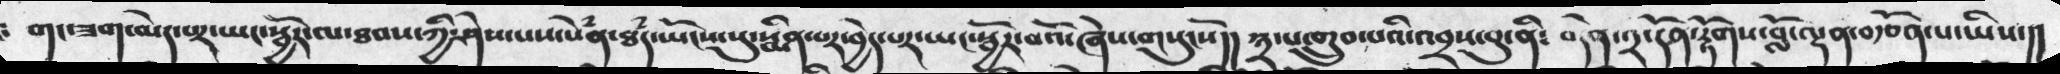གང་ཟག་མེད་པར་ཡང་སྦྱོར་ལ་ཐབས་ཀྱི་ཤེས་པས་སེཾན་ཐཾད་ཡོངས་སུ་སྨིན་པར་བྱེད་པར་ཡང་སྦྱོར་བའོ་ཞེས་གསུངསོ།།  ༣་པ་གྲུབ་པའི་འབྲས་བུ་ནི༴  བདེན་༢་དོན་རྟོགས་བློ་ལྡན་བརྩོན་པ་ཡིས་།།
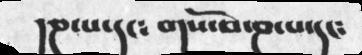།ཎ་པ་དང༴   གས་བོ་ཎ་པ་དང༴
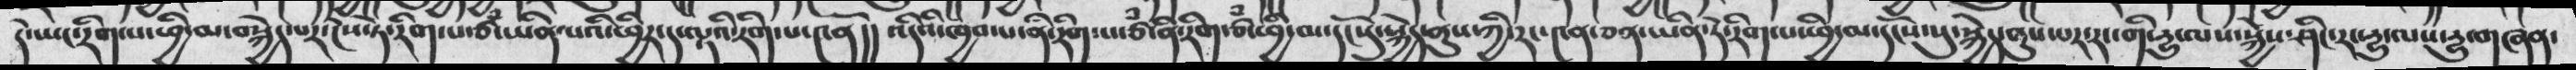དེ་ཡང་རིག་པ་ཕྱི་མ་བསྐྱེད་པར་ངེས་ཏེ་རིག་པ་ཙཾ་ཡིན་པའི་ཕྱིར་ད་ལྟའི་རིག་པ་༤ནོ།།  འདིའི་ཁྱབ་པ་ནི་རིག་པ་ཙཾ་ནི་རིག་ཙཾ་ཕྱི་མ་དངསོུ་སྐྱེད་ནུས་ཀྱི་རང་༤ན་ཅན་ཡིན་ཏེ་རིག་པ་ཕྱི་མ་དངསོ་སུ་སྐྱེད་ནུས་པར་རང་གི་དྱུ་ལས་སྐྱེས་ཤིང་རང་དྱུ་ལས་དྱུ་གཞན་
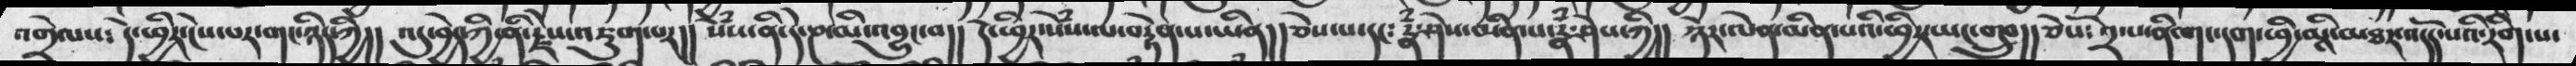འགྲེལས༴  དེ་ཕྱིར་ངེས་པར་གང་ཉིད་ཀྱི།།  འདུ་བྱེད་ཀྱི་ནི་རྗེས་འཇུག་པར།།  སེཾས་ནི་དེ་ཎ་མི་འབྱུང་བ།།  དེ་ཕྱིར་སེཾས་ལ་བརྟེན་པ་ཡིན།།  ཅེས་པ་དང༴  རྣཾ་ཤེས་མིན་པ་རྣཾ་ཤེས་ཀྱི།།  ཉེར་ལེན་མིན་པའི་ཕྱིར་ཡང་བཎྲུ།།  ཅེསོ༴  ༢་པ་ནི་གང་དག་ཕྱི་མྰི་མཐར་འདོད་པའི་རིག་པ་
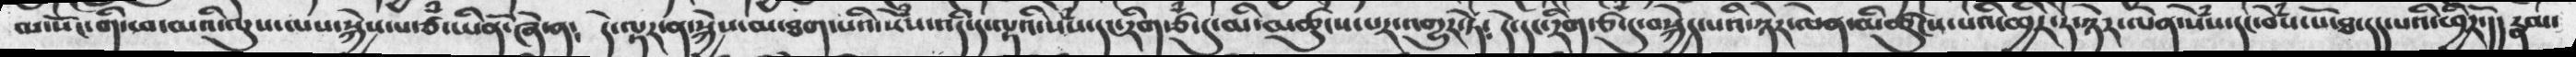མ་སོང་གི་ཕ་མའི་ལུས་ལས་སྐྱེས་པ་ཙཾ་ཡིནོ་ཞེ་ན༴    དེ་ལྟར་ན་སྐྱེས་མ་ཐག་པའི་སེཾས་འདི་ད་ལྟའི་སེཾས་དང་རིག་ཙཾ་དུ་མི་མཚུངས་པར་འགྱུར་ཏེ༴   དེ་དང་རིག་ཙཾ་དུ་བསྐྱེད་པའི་ཉེར་ལེན་མིཚུངས་པའི་ཕྱིར་ཏེ་ཉེར་ལེན་སེཾས་དང་བེཾས་པོ་ཐ་དད་པའི་ཕྱིརོ་།། རྣམ་
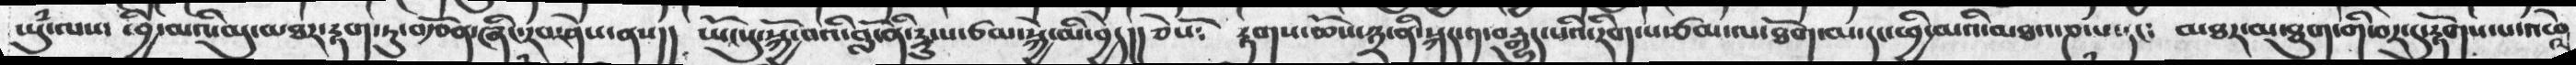ཡུཾ་ལས་  ཕྱི་མའི་མུ་མཐར་རྟག་ཏུ་བརྩོན་ཞིང་རབ་ཤེས་ནས།།  ཡོངསུ་སྐྱོ་བའི་བློ་ནི་རྡུ་པ་ཙམ་སྐྱེ་མི་བྱེད།།  ཅེསོ༴  རྟགས་ཆོས་༣་ནི་སྐད་༡་བརྒྱུད་པའི་རིག་པ་ཙམ་ལ་ཐོག་མ་དང་ཕྱི་མའི་མཐའ་ཎ་པ་དང༴  མཐར་མ་ཐུག་གི་བར་རྟོགས་པ་འཕེལ
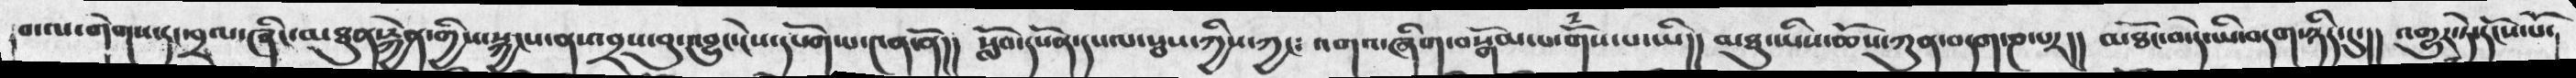བ་ལ་གེགས་དང་བྲལ་ཞིང་མཐུན་རྐྱེན་གྱིས་སྐྱངས་ན་འབྲས་བུ་འབྱུང་ངེས་དཔོག་པ་༤ན་ནོ།།    སློབ་དཔོན་དཔལ་སྦས་ཀྱིས་ཀྱང༴   འགའ་ཞིག་བསྒོམ་པ་གོས་པ་ཡི།།   མཐུ་ཡིས་ཆོས་ཀུན་བདག་ཎ་པར།།  མཐོང་བ་དེ་ཡི་བདག་ཉིད་དུ་།།  འགྱུར་ཏེ་དངོས་པོ་
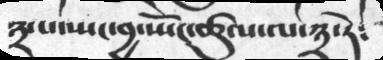༣་པ་སྤང་བྱ་སྤོང་ཚུལ་ལ་༣་ཏེ༴
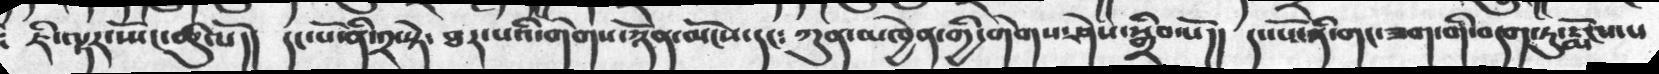ཇི་ལྟར་སྤོང་ཚུལོ།།    དང་པོ་ནི་༢་སྟེ་  ཐར་པའི་གེགས་ཉོན་མོངས་དང་ཀུན་མཁྱེན་གྱི་གེགས་ཤེས་སྒྲིབ་སོ།།   དང་པོ་ནི་གང་ཟག་གི་བདག་ཏུ་རྨོངས་པ
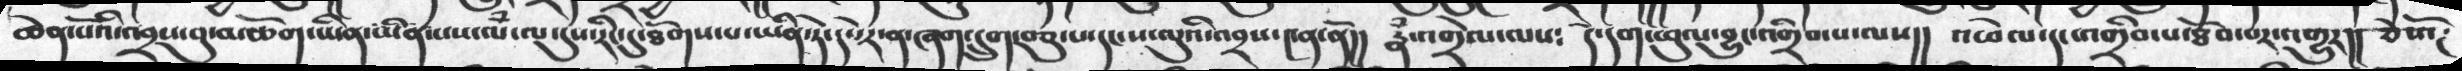ཆེན་པོའི་འབྲས་བུ་མཆོག་ཡིན་མིན་པས་ལྃ་ལ་དུས་རིང་དུ་ཐོགས་པ་ཡིན་ཏེ་དཔེར་ན་ཞག་དྲུག་བཅུ་པ་དང་ས་ལུའི་འབྲས་༤ནོ།།  རྣཾས་འགྲེལ་ལས༴  དེ་དག་ཕུལ་བྱུང་འགྲིབ་པ་ལས།།   འཕེལ་དང་འགྲིབ་པ་ཐོབ་པར་འགྱུར།།  ཅེསོ།
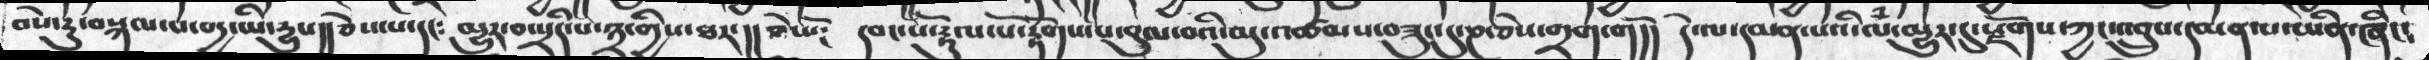བསེ་རུ་བསྐལ་པ་བདྱ་ཡི་དྱུས།།  ཅེས་པ་དང༴  མྱུར་བ་སྲིད་པ་༣་གྱིས་ཐར་།། ཅེསོ།   དབང་པོ་རྟུལ་པོ་རྟོགས་པ་བུལ་པའི་མུ་འཚམས་ཟུང་དུ་ཎ་ཅེས་གྲག་གོ།།   དེ་ལ་དམན་པའི་ལཾ་མྱུར་དུ་རྗོགས་ཀྱང་འབྲུས་དམན་པ་ཡིན་ཞིང༴
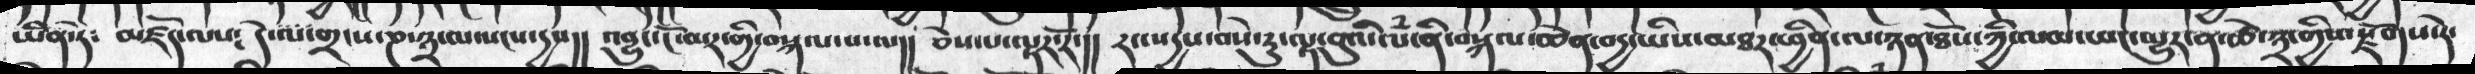ཡིན་ཏེ༴  མཛོད་ལས༴  དེ་ལ་གྲངས་ཎ་༣་ལ་སངས་དྱས།།  འབྱུང་ངོ་མར་གྱི་བསྐལ་པ་ལ།།  ཅེས་པ་ལྟར་རོ་།།  རང་སདྱས་བསེ་རུ་ལྟ་བུའི་ལྃ་ནི་བསྐལ་ཆེན་བདྱ་ཡིས་མཐར་ཕྱིན་ལ་ཉན་ཐོས་ཀྱི་ལམ་ཡང་མྱུར་ན་ཚེ་༣་གྱིས་རྗོགས་ཏེ་
